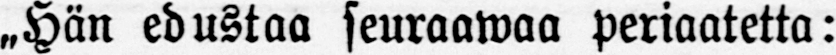„Hän edustaa seuraawaa periaatetta:
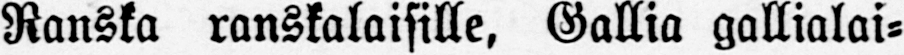Ranska ranskalaisille, Gallia gallialai-
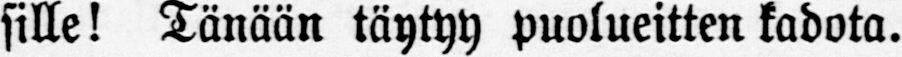sille! Tänään täytyy puolueitten kadota.
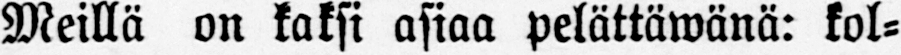Meillä on kaksi asiaa pelättäwänä: kol-
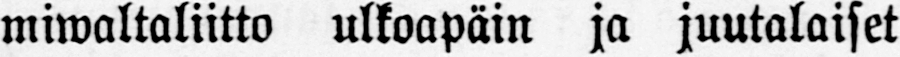miwaltaliitto ulkoapäin ja juutalaiset
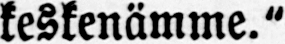keskenämme."
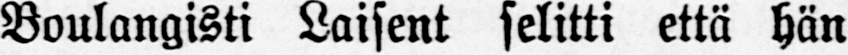Boulangisti Laisent selitti että hän
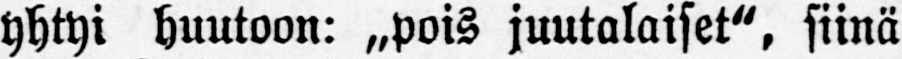yhtyi huutoon: „pois juutalaiset", siinä
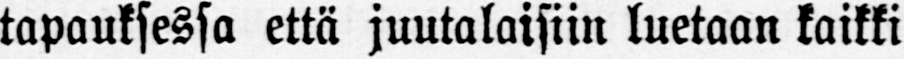tapauksessa että juutalaisiin luetaan kaikki
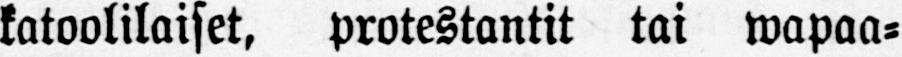katoolilaiset, protestantit tai wapaa-
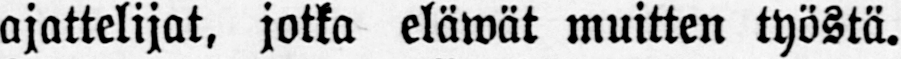ajattelijat, jotka eläwät muitten työstä.
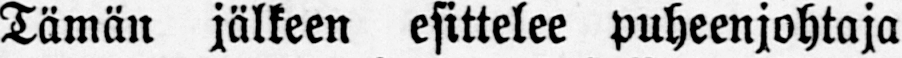Tämän jälkeen esittelee puheenjohtaja
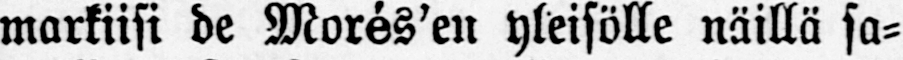markiisi de Morés'en yleisölle näillä sa-
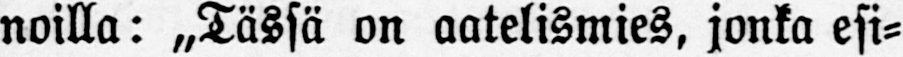noilla: „Tässä on aatelismies, jonka esi-
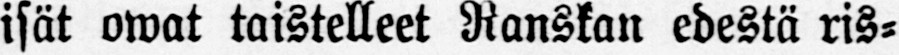isät owat taistelleet Ranskan edestä ris-
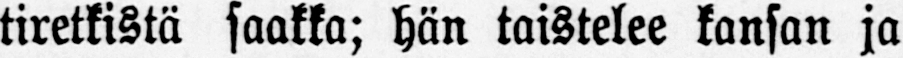tiretkistä saakka; hän taistelee kansan ja
